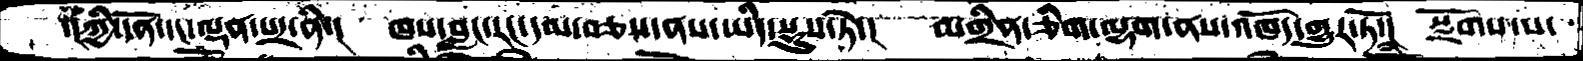་།ཀྱི་དོན་དང་ལྡན་པར་ནི་།    ཁས་བླང་རང་དམ་བཅས་ནས་ཡིད་སྡུས་ཏེ་།   མགྲིན་ཅིག་ལྷག་ནས་འཁོད་གྱུར་ཏོ་།   སྫོགས་པ་
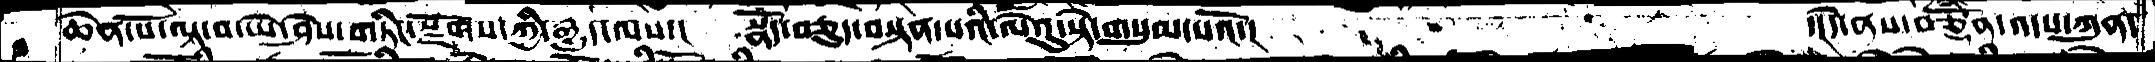ཆེན་པོ་ལྟ་བ་ཡེ་ཤེས་གཏིང་སྫོགས་ཀྱི་རྒྱུད་ལས་།    སྣོད་བཅུད་བསྟན་པའི་ལེའུ་སྟེ་གསུམ་པའོ་།                    ་།དེ་ནས་བཅྡོཾན་འདས་ཀུན་
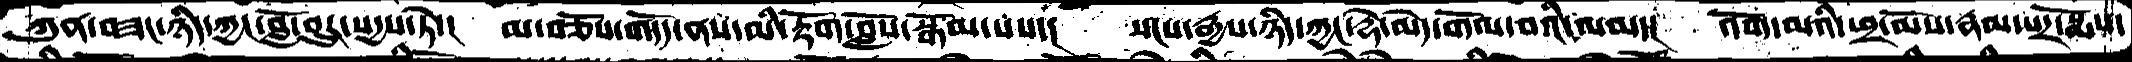ཀུན་བཟང་ཉིད་ཀྱང་བློ་བུར་སདྱས་ཏེ་།   མ་བཅོས་གདོད་ནས་མི་རྟོག་བློས་སྒོམ་པས་།   སངས་རྒྱས་ཉིད་ཀྱང་རྡེ་མེད་གོལ་བའི་ལམ་།    འོག་མའི་ཕྲ་མོས་རྣམ་པར་སྨོས་
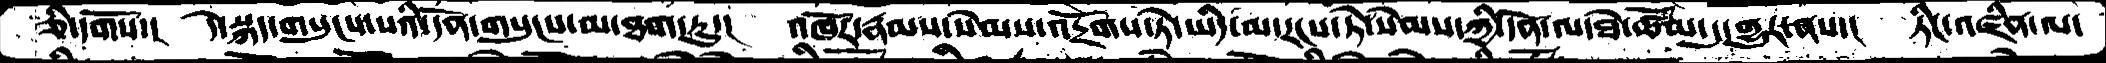ཅི་དགོས་།   དེ་སྐད་གསུངས་པའི་དོན་གསུངས་མ་ཐག་ཏུ་།   འཁོར་རྣམས་སེམས་འདྲོགས་ཏེ་ཡིད་མ་རངས་ཏེ་སེམས་ཀྱི་དོན་ལ་ཐེ་ཚོམ་དུ་གྱུར་ནས་།    ཏིང་འཛིན་ལ་
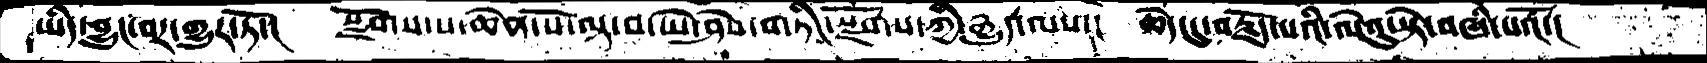ཡིད་བྱུང་བར་གྱུར་ཏོ་།    སྫོགས་པ་ཆེན་པོ་ལྟ་བ་ཡེ་ཤེས་གཏིང་སྫོགས་ཀྱི་རྒྱུད་ལས་།    ཆེད་དུ་བརྗོད་པའི་ལེའུ་སྟེ་བཞི་པའོ་།
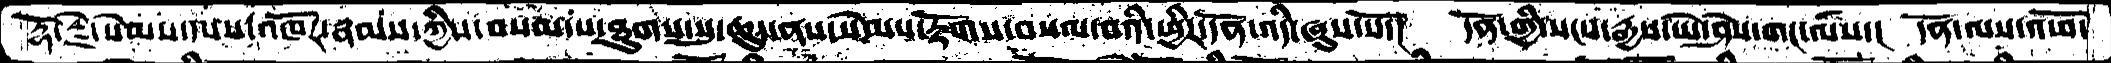རྡོ་རྗེ་སེམས་དཔས་འཁོར་རྣམས་ཀྱིས་བསམ་པ་ཐུགས་སུ་ཆུད་ནས་སེམས་རྟོགས་བསལ་བའི་ཕྱིར་དོན་འདི་ཞུས་སོ་།   དོན་གྱི་སངས་རྒྱས་ཡེ་ཤེས་གང་ལས་།  དོན་ལས་འཕོ་
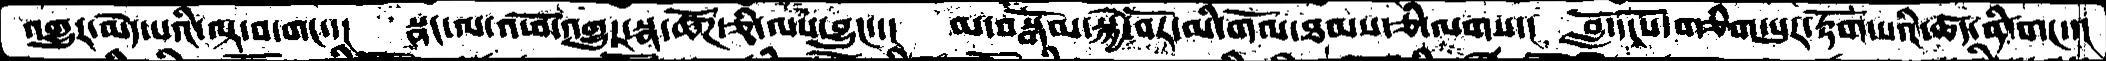འགྱུར་མེད་པའི་ལྟ་བ་གང་་།  སྣང་ལ་འཕོ་འགྱུར་སྣ་ཚོཌ་ཅི་ལས་བྱུང་་།  མ་བསྒོམ་སྐྱེ་བོར་མི་གོལ་ཐམས་ཅི་ལགས་།  བློ་དངོས་གཅིག་པུར་རྟོག་པའི་ཚད་ནི་གང་་།
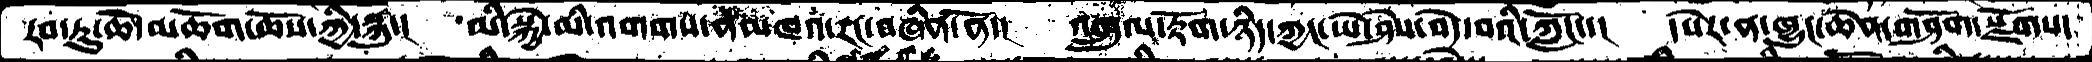རབ་ཏུ་ཆེ་མཆོག་ཆོས་ཀྱི་སྐུ་།   མི་སྐྱེ་མི་འགགས་ནམཁའ་རང་བཞིན་ནོ་།  འཁྲུལ་རྟོག་ཉིད་ཀྱང་ཡེ་ཤེས་བདེ་བའི་ཀློང་་།  དཔེར་ན་ཁྱུང་ཆེན་གཤོག་སྫོགས་
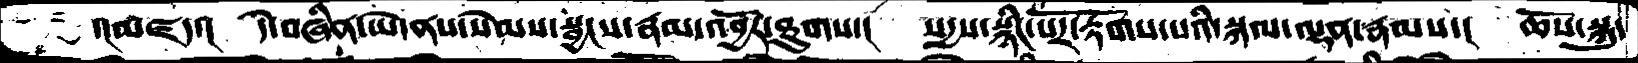་།མཛད་།  དེ་བཞིན་ཡེ་ནས་སེམས་སྦྱངས་རྣམ་འབྱོར་ཐུགས་།  སདྱས་སྙིང་པོར་རྟོགས་པའི་སྐལ་ལྡན་རྣམས་།  ཆོས་སྐུ་
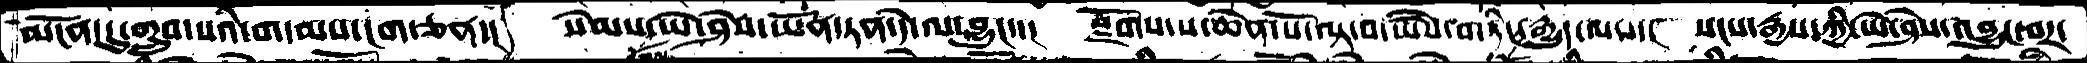མངོན་དུ་གྲུབ་པའི་གདམས་ངག་ཅན་།  སེམས་ཡེ་ཤེས་ཡོན་ཏན་དེ་ལ་བྱུང་་།  སྫོགས་པ་ཆེན་པོ་ལྟ་བ་ཡེསེ་གཏིང་རྒྱུད་ལས་།  སངས་རྒྱས་ཀྱི་ཡེ་ཤེས་འབྱུང་བར་
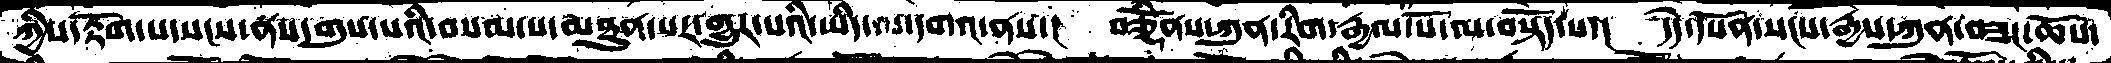ཀྱིས་རྟོག་པ་སངས་ནས་གུས་པའི་བསམ་པ་མཐུན་པར་གྱུར་པའི་ཡིད་ལ་དགའ་ནས་།  བཅྡོཾནས་ཀུན་རིག་རྒྱལ་པོ་ལ་བསྟོད་པ་།  དེད་དཔོན་སངས་རྒྱས་ཀུན་བཟང་ཆོས་
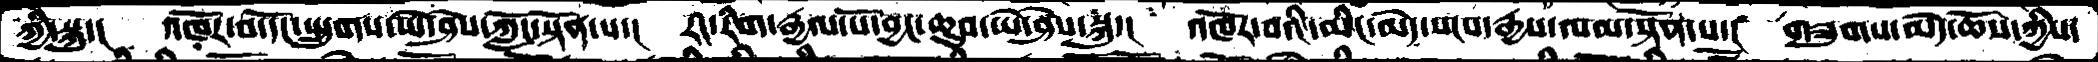ཀྱི་སྐུ་།  འཁོར་བ་དོང་སྤྲུགས་ཡེ་ཤེས་ཀློང་སྟོན་པ་།  རང་རིག་རྒྱལ་པོ་བྱང་ཆུབ་ཡེ་ཤེས་སྐུ་།  འཁོར་བའི་མིང་མེད་སངས་རྒྱས་ལམ་སྟོན་པ་།  གཟུགས་མེད་ཆོས་ཀྱིས་
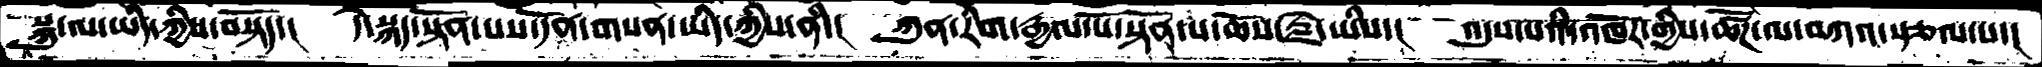སྐུ་ལ་ཡིད་ཀྱིས་བསྟོད་།   དེ་སྐད་སྟོན་པས་དོན་གསན་ཡིད་ཀྱིས་ནི་།  ཀུན་རིག་རྒྱལ་པོ་སྟོན་པ་ཆོས་རྗེ་ཡིས་།  འདུས་པའི་འཁོར་གྱིས་ཚོཌ་ལ་བཀའ་སྩལ་པ་།
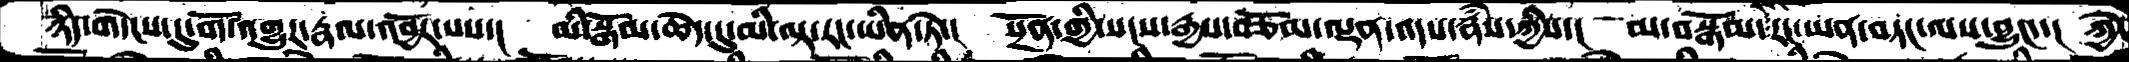ཉིད་གདེངས་དུ་གོ་འགྱུར་རྣལ་འབྱོར་པས་།   མི་སྒོམ་ཆེད་དུ་མི་ལྟ་རང་ཡིན་ཏེ་།  སྔོན་གྱི་སངས་རྒྱས་བཅོམ་ལྡན་འདས་རྣཾས་ཀྱིས་།  མ་བསྒོམ་རང་ཡན་བཏང་ལས་བྱུང་་།  ཀྱེ་
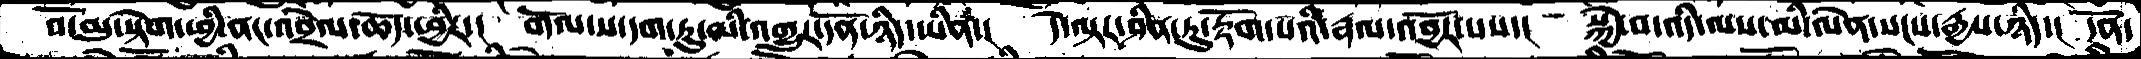བོ་མུ་སྟེག་ཕྱི་ནང་འབྲེལ་ཆོད་ཕྱིར་།  གོལ་ས་དག་ཏུ་མི་འགྱུར་དོན་ཉིད་ཡིན་།  དེ་ལྟར་ཤིན་ཏུ་རྟོག་པའི་རྣལ་འབྱོར་པས་།  སྐྱེ་བ་འདི་ལས་མི་ལེན་སངས་རྒྱས་ཉིད་།  དོན་
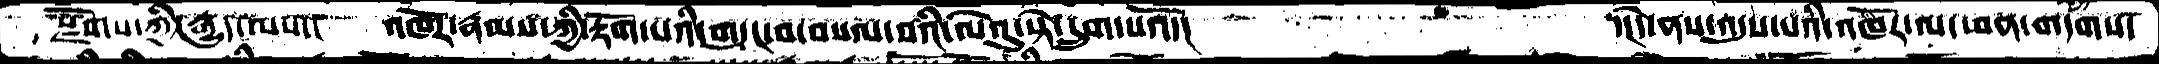སྫོགས་ཀྱི་རྒྱུད་ལས་།  འཁོར་རྣམས་ཀྱི་རྟོག་པའི་གདུང་བ་བསལ་བའི་ལེའུ་སྟེ་དྲུག་པའོ་།         ་།དེ་ནས་འདུས་པའི་འཁོར་ལ་ཕན་གདགས་
